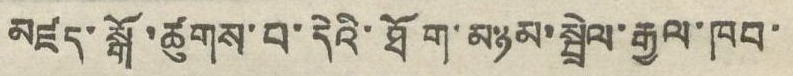མཛད་སྒོ་ཚུགས་པ་དེའི་ཐོག་མཉམ་སྦྲེལ་རྒྱལ་ཁབ་
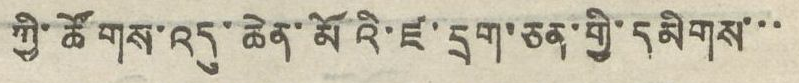ཀྱི་ཚོགས་འདུ་ཆེན་མོའི་ཛ་དྲག་ཅན་གྱི་དམིགས་་་
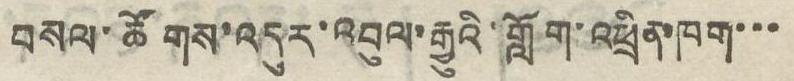བསལ་ཚོགས་འདུར་འབུལ་རྒྱུའི་གློག་འཕྲིན་ཁག་་་
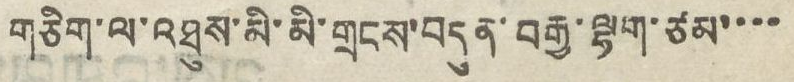གཅིག་ལ་འཐུས་མི་མི་གྲངས་བདུན་བརྒྱ་ལྷག་ཙམ་་་་
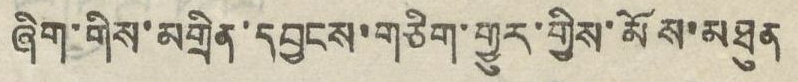ཞིག་གིས་མགྲེམ་དབྱངས་གཅིག་གྱུར་གྱིས་མོས་མཐུན
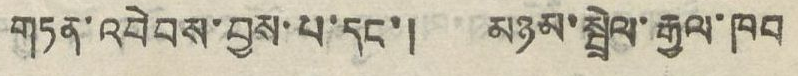གཏན་འབེབས་བྱས་པ་དང་། མཉམ་སྦྲེལ་རྒྱལ་ཁབ
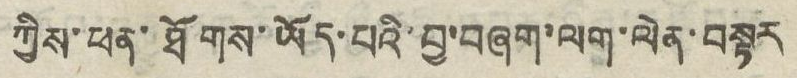ཀྱིས་ཕན་ཐོགས་ཡོད་པའི་བྱ་བཞག་ལག་ལེན་བསྟར
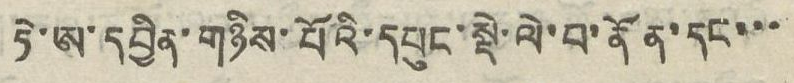ཏེ་ཨ་དབྱིན་གཉིས་པོའི་དཔུང་སྡེ་ལེ་པ་ནོན་དང་་་
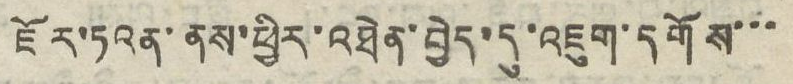ཇོར་ཏའན་ནས་ཕྱིར་འཐེན་བྱེད་དུ་འཇུག་དགོས་་་
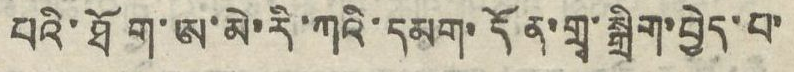པའི་ཐོག་ཨ་མེ་རི་ཀའི་དམག་དོན་གྲྭ་སྒྲིག་བྱེད་པ་
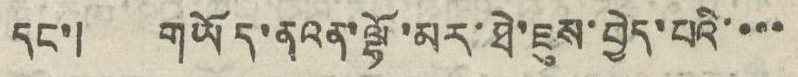དང་། གཡོད་ནའན་ལྷོ་མར་ཐེ་ཇུས་བྱེད་པའི་་་་
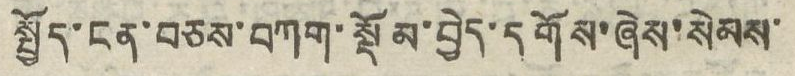སྤྱོད་ངན་བཅས་བཀག་སྡོམ་བྱེད་དགོས་ཞེས་སེམས་
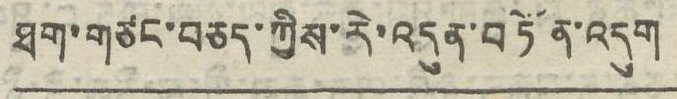ཐག་གཙང་བཅད་ཀྱིས་རེ་འདུན་བཏོན་འདུག
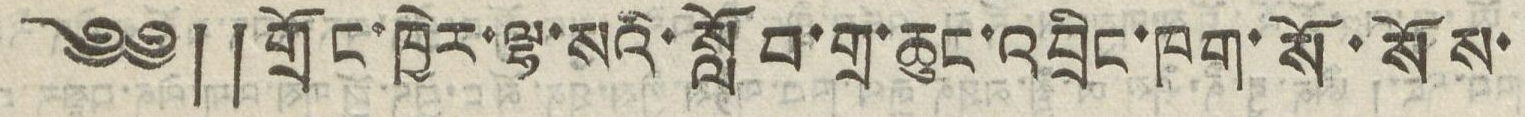༄༅། །གྲོང་ཁྱེར་ལྷ་སའི་སློབ་གྲ་ཆུང་འབྲིང་ཁག་སོ་སོས་
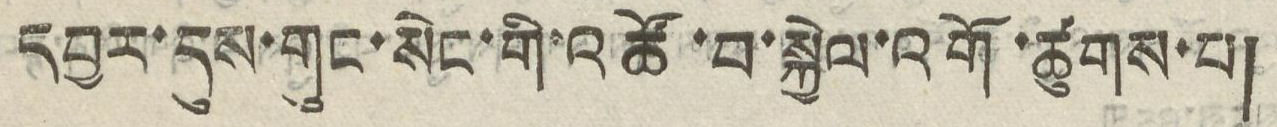དབྱར་དུས་གུང་སེང་གི་འཚོ་བ་སྐྱེལ་འགོ་ཚུགས་པ།
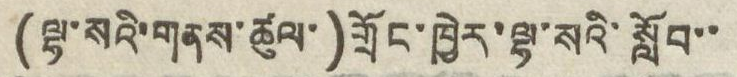(ལྷ་སའི་གནས་ཚུལ་)གྲོང་ཁྱེར་ལྷ་སའི་སློབ་་
